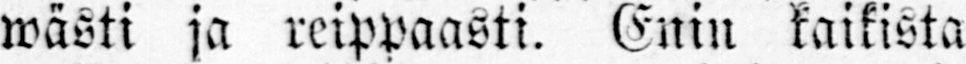wästi ja reippaasti. Enin kaikista
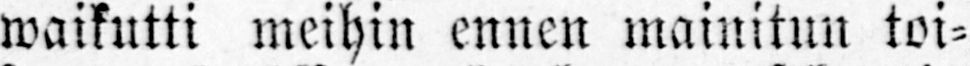waikutti meihin ennen mainitun toi-
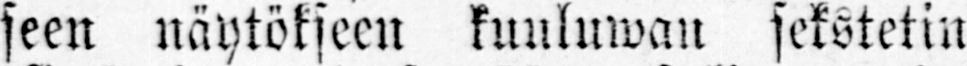seen näytökseen kuuluwan sekstetin
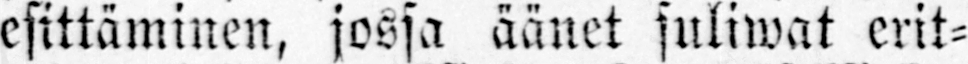esittäminen, jossa äänet suliwat erit-
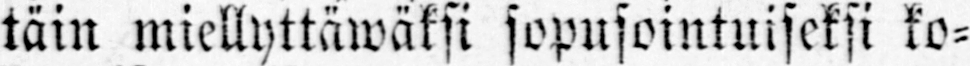täin miellyttäwäksi sopusointuiseksi ko-
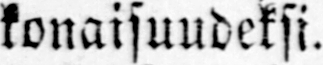konaisuudeksi.
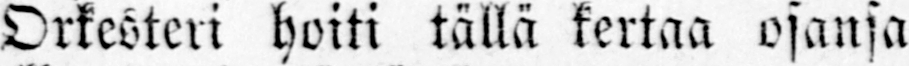Orkesteri hoiti tällä kertaa osansa
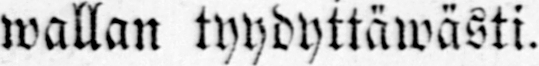wallan tyydyttäwästi.
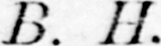B. H.
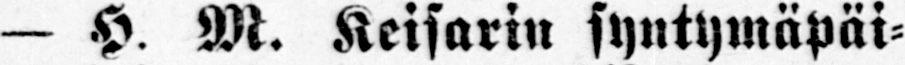— H. M. Keisarin syntymäpäi-
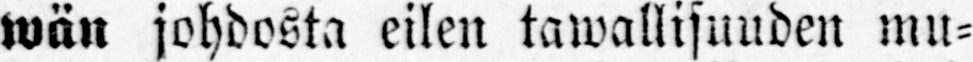wän johdosta eilen tawallisuuden mu-
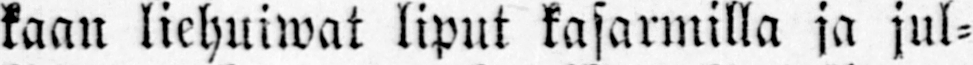kaan liehuiwat liput kasarmilla ja jul-
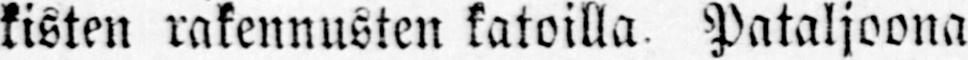kisten rakennusten katoilla. Pataljoona
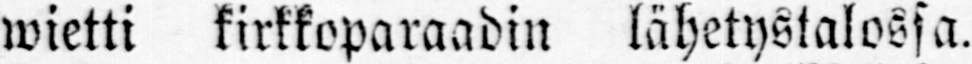wietti kirkkoparaadin lähetystalossa.
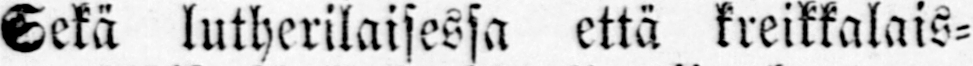Sekä lutherilaisessa että kreikkalais-
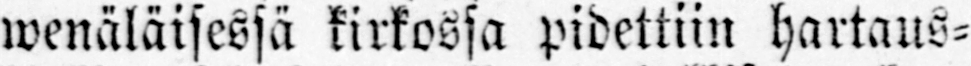wenäläisessä kirkossa pidettiin hartaus-
